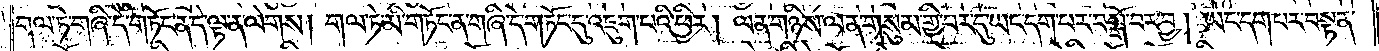གལ་ཏེ་གཞི་དེ་གཏོང་ན་དེ་ལྟ་ན་ལེགས། གལ་ཏེ་མི་གཏོང་ན་གཞི་དེ་གཏོང་དུ་འཇུག་པའི་ཕྱིར། ལན་གཉིས་ལན་གསུམ་གྱི་བར་དུ་ཡང་དག་པར་བསྒོ་བར་བྱ། ཡང་དག་པར་བསྟན་
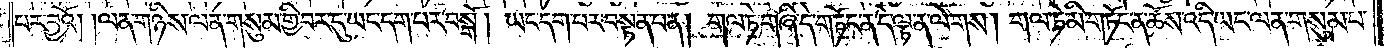པར་བྱའོ། །ལན་གཉིས་ལན་གསུམ་གྱི་བར་དུ་ཡང་དག་པར་བསྒོ། ཡང་དག་པར་བསྟན་པ་ན། གལ་ཏེ་གཞི་དེ་གཏོང་ན་དེ་ལྟ་ན་ལེགས། གལ་ཏེ་མི་གཏོང་ན་ཆོས་འདི་ཡང་ལན་གསུམ་པ་
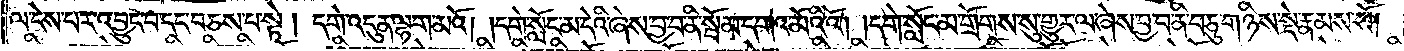ལ་ངེས་པར་འབྱུང་བ་དང་བཅས་པ་སྟེ། དགེ་འདུན་ལྷག་མའོ། །དགེ་སློང་མ་དེའི་ཞེས་བྱ་བ་ནི་སྦོམ་དགའ་མོའི་འོ། །དགེ་སློང་མ་གྲོགས་སུ་གྱུར་ལ་ཞེས་བྱ་བ་ནི་བཅུ་གཉིས་སྡེ་རྣམས་སོ། །
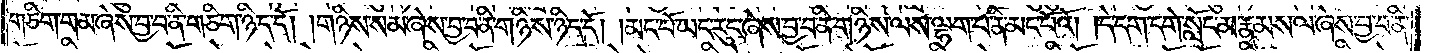གཅིག་གམ་ཞེས་བྱ་བ་ནི་གཅིག་ཉིད་དོ། །གཉིས་སམ་ཞེས་བྱ་བ་ནི་གཉིས་ཉིད་དོ། །མང་པོ་ཡང་རུང་ཞེས་བྱ་བ་ནི་གཉིས་ལས་ལྷག་པ་ནི་མང་པོའོ། །དེ་དག་དགེ་སློང་མ་རྣམས་ལ་ཞེས་བྱ་བ་ནི་
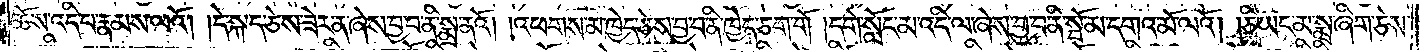ཆོས་འདི་པ་རྣམས་ལའོ། །དེ་སྐད་ཅེས་ཟེར་ན་ཞེས་བྱ་བ་ནི་སྨྲ་ནའོ། །འཕགས་མ་ཁྱེད་ཅེས་བྱ་བ་ནི་ཁྱེད་ཅག་གོ །དགེ་སློང་མ་འདི་ལ་ཞེས་བྱ་བ་ནི་སྦོམ་དགའ་མོ་ལའོ། །ཅི་ཡང་མ་སྨྲ་ཞིག་ཅེས་
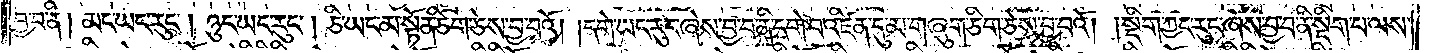བྱ་བ་ནི། མང་ཡང་རུང༌། ཉུང་ཡང་རུང༌། ཅི་ཡང་མ་སྟོན་ཅིག་ཅེས་བྱ་བའོ། །དགེ་ཡང་རུང་ཞེས་བྱ་བ་ནི་དགེ་བ་འཛིན་དུ་མ་གཞུག་ཅིག་ཅེས་བྱ་བའོ། །སྡིག་ཀྱང་རུང་ཞེས་བྱ་བ་ནི་སྡིག་པ་ལས་
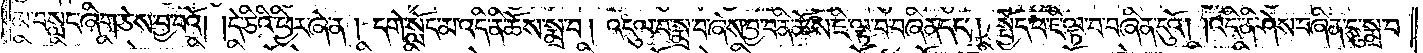མ་བསླང་ཞིག་ཅེས་བྱ་བའོ། །དེ་ཅིའི་ཕྱིར་ཞེ་ན། དགེ་སློང་མ་འདི་ནི་ཆོས་སྨྲ་བ། འདུལ་བ་སྨྲ་བ་ཞེས་བྱ་བ་ནི་ཆོས་ཇི་ལྟ་བ་བཞིན་དང༌། སྤྱོད་པ་ཇི་ལྟ་བ་བཞིན་དུའོ། །འདི་ནི་ཤེས་བཞིན་དུ་སྨྲ་བ་
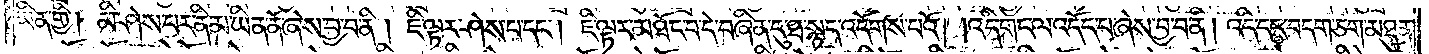ཡིན་གྱི། མི་ཤེས་པར་ནི་མ་ཡིན་ནོ་ཞེས་བྱ་བ་ནི། ཇི་ལྟར་ཤེས་པ་དང༌། ཇི་ལྟར་མཐོང་བ་དེ་བཞིན་དུ་ཐ་སྙད་འདོགས་པའོ། །འདི་གང་ལ་འདོད་པ་ཞེས་བྱ་བ་ནི། འདི་དང་བདག་ཅག་མཐུན་
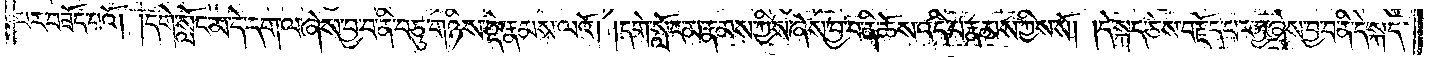པར་བཟོད་པའོ། །དགེ་སློང་མ་དེ་དག་ལ་ཞེས་བྱ་བ་ནི་བཅུ་གཉིས་སྡེ་རྣམས་ལའོ། །དགེ་སློང་མ་རྣམས་ཀྱིས་ཞེས་བྱ་བ་ནི་ཆོས་འདི་པ་རྣམས་ཀྱིས་སོ། །དེ་སྐད་ཅེས་བརྗོད་པར་བྱ་ཞེས་བྱ་བ་ནི་དེ་སྐད་
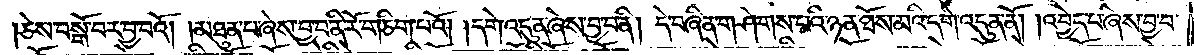ཅེས་བསྒོ་བར་བྱ་བའོ། །མཐུན་པ་ཞེས་བྱ་བ་ནི་རོ་གཅིག་པའོ། །དགེ་འདུན་ཞེས་བྱ་བ་ནི། དེ་བཞིན་གཤེགས་པའི་ཉན་ཐོས་མའི་དགེ་འདུན་ནོ། །འབྱེད་པ་ཞེས་བྱ་བ་
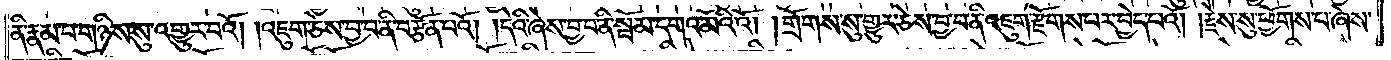ནི་རྣམ་པ་གཉིས་སུ་འགྱུར་བའོ། །འཇུག་ཅེས་བྱ་བ་ནི་བརྩོན་པའོ། །དེའི་ཞེས་བྱ་བ་ནི་སྦོམ་དགའ་མོའི་འོ། །གྲོགས་སུ་གྱུར་ཅེས་བྱ་བ་ནི་འཇུག་རྫོགས་པར་བྱེད་པའོ། །རྗེས་སུ་ཕྱོགས་པ་ཞེས་
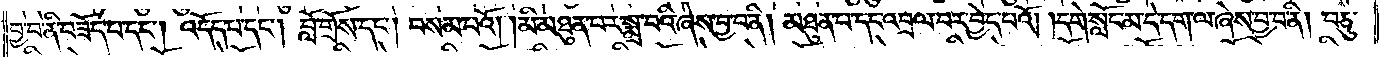བྱ་བ་ནི་བཟོད་པ་དང༌། འདོད་པ་དང༌། བློ་གྲོས་དང༌། བསམ་པའོ། །མི་མཐུན་པར་སྨྲ་བའི་ཞེས་བྱ་བ་ནི། མཐུན་པ་དང་འབྲལ་བར་བྱེད་པའོ། །དགེ་སློང་མ་དེ་དག་ལ་ཞེས་བྱ་བ་ནི། བཅུ་
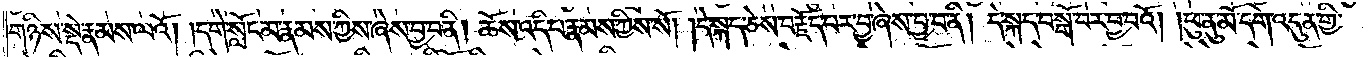གཉིས་སྡེ་རྣམས་ལའོ། །དགེ་སློང་མ་རྣམས་ཀྱིས་ཞེས་བྱ་བ་ནི། ཆོས་འདི་པ་རྣམས་ཀྱིས་སོ། །དེ་སྐད་ཅེས་བརྗོད་པར་བྱ་ཞེས་བྱ་བ་ནི། དེ་སྐད་བསྒོ་བར་བྱ་བའོ། །ཕུ་ནུ་མོ་དགེ་འདུན་གྱི་
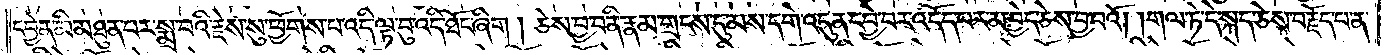དབྱེན་མི་མཐུན་པར་སྨྲ་བའི་རྗེས་སུ་ཕྱོགས་པ་འདི་ལྟ་བུ་འདི་ཐོང་ཞིག། ཅེས་བྱ་བ་ནི་རྣམ་གྲངས་དུ་མས་དགེ་འདུན་དབྱེ་བར་འདོད་པར་མ་བྱེད་ཅེས་བྱ་བའོ། །གལ་ཏེ་དེ་སྐད་ཅེས་བརྗོད་པ་ན་
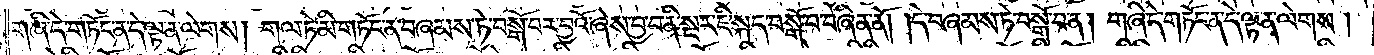གཞི་དེ་གཏོང་ན་དེ་ལྟ་ན་ལེགས། གལ་ཏེ་མི་གཏོང་ན་བཞམས་ཏེ་བསྒོ་བར་བྱའོ་ཞེས་བྱ་བ་ནི་སྔར་ཇི་སྐད་བསྒོ་བ་བཞིན་ནོ། །དེ་བཞམས་ཏེ་བསྒོ་བ་ན། གཞི་དེ་གཏོང་ན་དེ་ལྟ་ན་ལེགས།
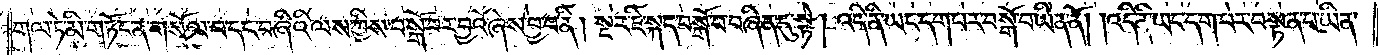གལ་ཏེ་མི་གཏོང་ན་གསོལ་བ་དང་བཞིའི་ལས་ཀྱིས་བསྒོ་བར་བྱའོ་ཞེས་བྱ་བ་ནི། སྔར་ཇི་སྐད་བསྒོ་བ་བཞིན་དུ་སྟེ། འདི་ནི་ཡང་དག་པར་བསྒོ་བ་ཡིན་ནོ། །འདི་ནི་ཡང་དག་པར་བསྟན་པ་ཡིན་
